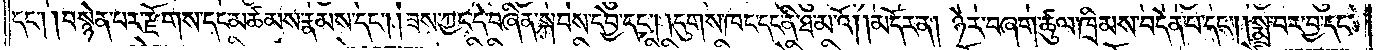དང༌། །བསྙེན་པར་རྫོགས་དང་མཚམས་རྣམས་དང༌། །ཟས་ཀྱང་དེ་བཞིན་སྐབས་དབྱེ་དང༌། །དུགས་ཁང་དང་ནི་ཐ་མའོ། །མདོར་ན། ཉེར་བཞག་ཚུལ་ཁྲིམས་བདེན་པ་དང༌། །སྨྲ་བར་བྱ་དང་
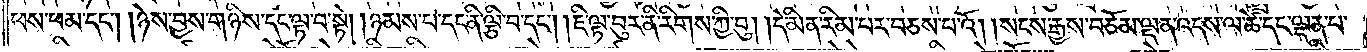ཕས་ཕམ་དང༌། །ཉེས་བྱས་གཉིས་དང་ལྟ་བ་སྟེ། །ཉམས་པ་དང་ནི་ལྕི་བ་དང༌། །ཇི་ལྟ་བུར་ནི་རིགས་ཀྱི་བུ། །དེ་མིན་རིམ་པར་བཅས་པའོ། །སངས་རྒྱས་བཅོམ་ལྡན་འདས་ལ་ཚེ་དང་ལྡན་པ་
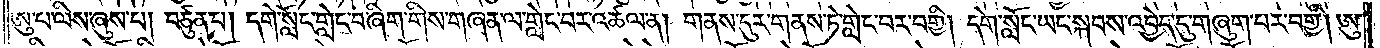ཨུ་པ་ལིས་ཞུས་པ། བཙུན་པ། དགེ་སློང་གླེང་བ་ཞིག་གིས་གཞན་ལ་གླེང་བར་འཚལ་ན། གནས་དུར་གནས་ཏེ་གླེང་བར་བགྱི། དགེ་སློང་ཡང་སྐབས་འབྱེད་དུ་གཞུག་པར་བགྱི། ཨུ་
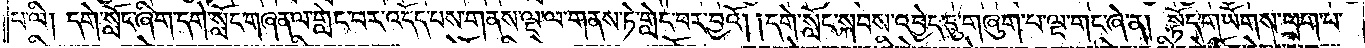པ་ལི། དགེ་སློང་ཞིག་དགེ་སློང་གཞན་ལ་གླེང་བར་འདོད་པས་གནས་ལྔ་ལ་གནས་ཏེ་གླེང་བར་བྱའོ། །དགེ་སློང་སྐབས་འབྱེད་དུ་གཞུག་པ་ལྔ་གང་ཞེ་ན། སྟོད་གཡོགས་ཕྲག་པ་
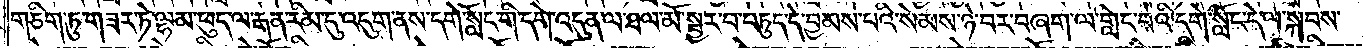གཅིག་ཏུ་གཟར་ཏེ་ལྷམ་ཕུད་ལ་རྒན་རིམ་དུ་འདུག་ནས་དགེ་སློང་གི་དགེ་འདུན་ལ་ཐལ་མོ་སྦྱར་བ་བཏུད་དེ་བྱམས་པའི་སེམས་ཉེ་བར་བཞག་ལ་གླེང་བའི་དགེ་སློང་དེ་ལ་སྐབས་
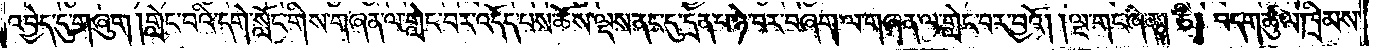འབྱེད་དུ་གཞུག །གླེང་བའི་དགེ་སློང་གིས་གཞན་ལ་གླེང་བར་འདོད་པས་ཆོས་ལྔས་ནང་དུ་དྲན་པ་ཉེ་བར་བཞག་ལ་གཞན་ལ་གླེང་བར་བྱའོ། །ལྔ་གང་ཞེ་ན། ཅི། བདག་ཚུལ་ཁྲིམས་
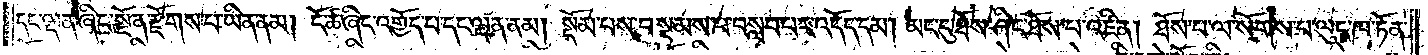དང་ལྡན་ཞིང་སྔོན་རྫོགས་པ་ཡིན་ནམ། ངོ་ཚ་ཞིང་འགྱོད་པ་དང་ལྡན་ནམ། སྡོམ་པས་བསྡམས་པ་བསླབ་པར་འདོད་དམ། མང་དུ་ཐོས་ཤིང་ཐོས་པ་འཛིན། ཐོས་པ་ལ་སོགས་པ་ལུང་ཁ་ཏོན་
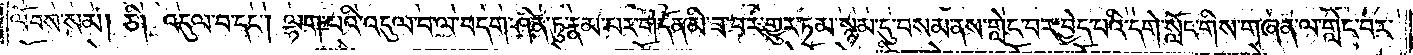ལོབས་སམ། ཅི། འདུལ་བ་དང༌། ལྷག་པའི་འདུལ་བ་ལ་བདག་ཤིན་ཏུ་རྣམ་པར་གདོན་མི་ཟ་བར་གྱུར་ཏམ་སྙམ་དུ་བསམ་ནས་གླེང་བར་བྱེད་པའི་དགེ་སློང་གིས་གཞན་ལ་གླེང་བར་
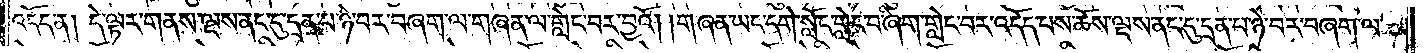འདོད་ན། དེ་ལྟར་གནས་ལྔས་ནང་དུ་དྲན་པ་ཉེ་བར་བཞག་ལ་གཞན་ལ་གླེང་བར་བྱའོ། །གཞན་ཡང་དགེ་སློང་གླེང་བ་ཞིག་གླེང་བར་འདོད་པས་ཆོས་ལྔས་ནང་དུ་དྲན་པ་ཉེ་བར་བཞག་ལ་
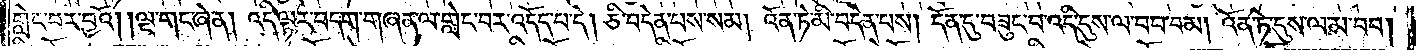གླེང་བར་བྱའོ། །ལྔ་གང་ཞེ་ན། འདི་ལྟར་བདག་གཞན་ལ་གླེང་བར་འདོད་པ་དེ། ཅི་བདེན་པས་སམ། འོན་ཏེ་མི་བདེན་པས། དོན་དུ་བཟུང་བ་འདི་དུས་ལ་བབ་བམ། འོན་ཏེ་དུས་ལ་མ་བབ།
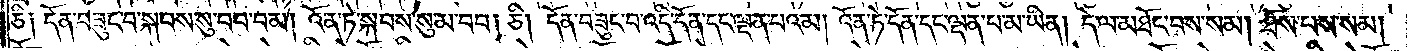ཅི༑ དོན་བཟུང་བ་སྐབས་སུ་བབ་བམ། འོན་ཏེ་སྐབས་སུ་མ་བབ༑ ཅི། དོན་བཟུང་བ་འདི་དོན་དང་ལྡན་པའམ། འོན་ཏེ་དོན་དང་ལྡན་པ་མ་ཡིན། དེ་ལ་མཐོང་བས་སམ། ཐོས་པས་སམ།
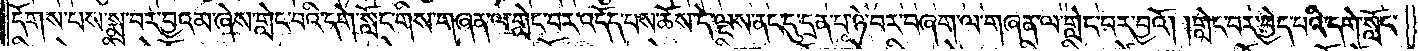དོགས་པས་སྨྲ་བར་བྱའམ་ཞེས་གླེང་བའི་དགེ་སློང་གིས་གཞན་ལ་གླེང་བར་འདོད་པས་ཆོས་དེ་ལྔས་ནང་དུ་དྲན་པ་ཉེ་བར་བཞག་ལ་གཞན་ལ་གླེང་བར་བྱའོ། །གླེང་བར་བྱེད་པའི་དགེ་སློང་
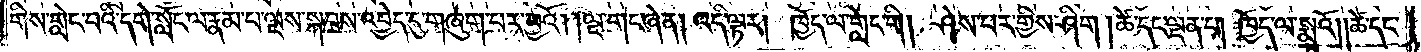གིས་གླེང་བའི་དགེ་སློང་ལ་རྣམ་པ་ལྔས་སྐབས་འབྱེད་དུ་གཞུག་པར་བྱའོ། །ལྔ་གང་ཞེ་ན། འདི་ལྟར། ཁྱོད་ལ་གླེང་གི། ཤེས་པར་གྱིས་ཤིག །ཚེ་དང་ལྡན་པ། ཁྱོད་ལ་སྨྲའོ། །ཚེ་དང་
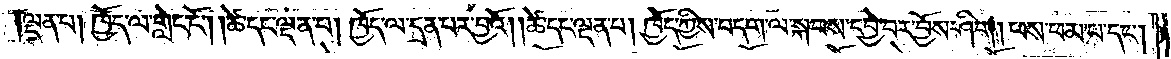ལྡན་པ། ཁྱོད་ལ་གླེང་ངོ༌། །ཚེ་དང་ལྡན་པ། ཁྱོད་ལ་དྲན་པར་བྱའོ། །ཚེ་དང་ལྡན་པ། ཁྱོད་ཀྱིས་བདག་ལ་སྐབས་དབྱེ་བར་བྱོས་ཤིག །ཕས་ཕམ་པ་དང༌།
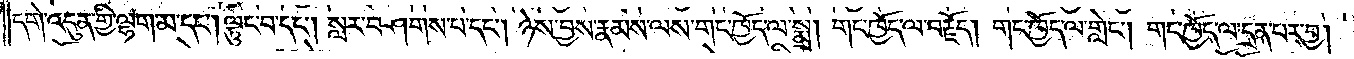དགེ་འདུན་གྱི་ལྷག་མ་དང༌། ལྟུང་བ་དང༌། སླར་བཤགས་པ་དང༌། ཉེས་བྱས་རྣམས་ལས་གང་ཁྱོད་ལ་སྨྲས། གང་ཁྱོད་ལ་བརྗོད། གང་ཁྱོད་ལ་གླེང༌། གང་ཁྱོད་ལ་དྲན་པར་བྱ།
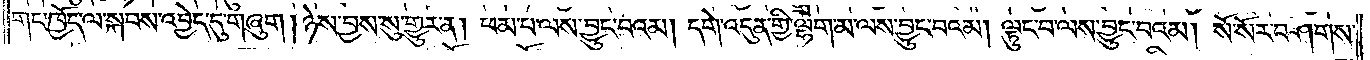གང་ཁྱོད་ལ་སྐབས་འབྱེད་དུ་གཞུག །ཉེས་བྱས་སུ་གྱུར་ན། ཕམ་པ་ལས་བྱུང་བའམ། དགེ་འདུན་གྱི་ལྷག་མ་ལས་བྱུང་བའམ། ལྟུང་བ་ལས་བྱུང་བའམ། སོ་སོར་བཤགས་
